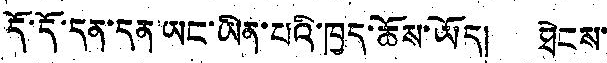དོ་དོ་དན་དན་ཡང་ཡིན་པའི་ཁྱད་ཆོས་ཡོད། ཐེངས་
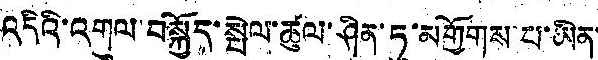འདིའི་འགུལ་བསྐྱོད་སྤེལ་ཚུལ་ཤིན་ཏུ་མགྱོགས་པ་ཡིན་
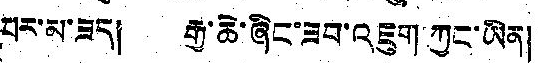པར་མ་ཟད། རྒྱ་ཆེ་ཞིང་ཟབ་འཇུག ཀྱང་ཡིན།
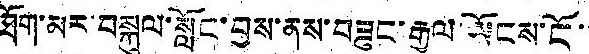ཐོག་མར་བསྐུལ་སློང་བྱས་ནས་བཟུང་རྒྱལ་ཡོངས་ངོ་་
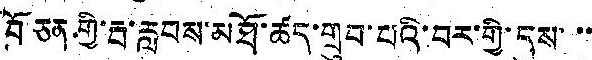བོ ཅན གྱི་རྦ་རབས་མཐོ་ཚད་གྲུབ་པའི་བར་གྱི་དུས་་་
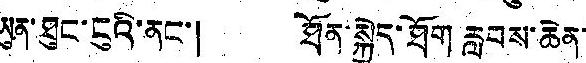ཡུན་ཐུང་ངུའི་ནང་། ཐོན་སྐྱེད་ཐོག རླབས་ཆེན་
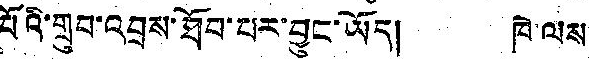པོའི་གྲུབ་འབྲས་ཐོབ་པར་བྱུང་ཡོད། ཁེ་ལས་
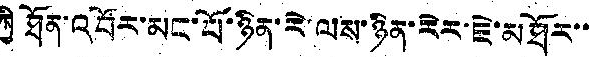ཀྱི ཐོན་འབོར་མང་པོ་ཉིན་རེ་ལས་ཉིན་རེར་ཇེ་མཐོར་་
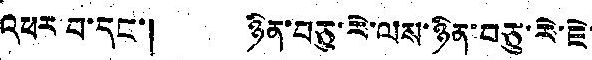འཕར བ་དང་། ཉིན་བཅུ་རེ་ལས་ཉིན་བཅུ་རེ་ཇེ་
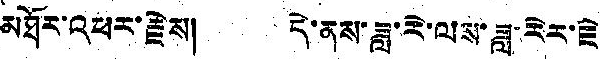མཐོར་འཕར་རྗེས། དེ་ནས་ཟླ་རེ་ལས་ཟླ་རེར་ཇེ
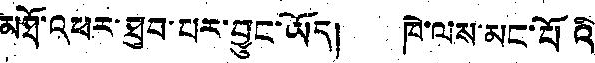མཐོ་འཕར་ཐུབ་པར་བྱུང་ཡོད། ཁེ་ལས་མང་པོའི
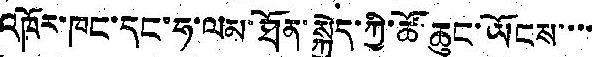འཁོར་ཁང་དང་ཧ་ལམ་ཐོན་སྐྱེད་ཀྱི་ཚོ་ཆུང་ཡོངས་་་་
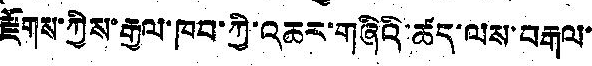རྫོགས་ཀྱིས་རྒྱལ་ཁབ་ཀྱི་འཆར་གཞིའི་ཚད་ལས་བརྒལ་
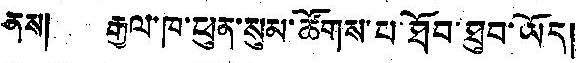ནས། རྒྱལ་ཁ་ཕུན་སུམ་ཚོགས་པ་ཐོབ་ཐུབ་ཡོད།
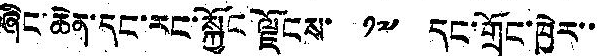ཞིང་ཆེན་དང་རང་སྐྱོང་ལྗོངས་ ༡༧ དང་གྲོང་ཁྱེར་་
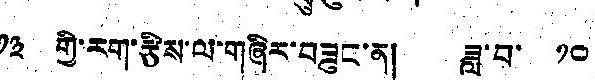༡༣ གྱི་རག་རྩིས་ལ་གཞིར་བཟུང་ན། ཟླ་བ་ ༡༠
